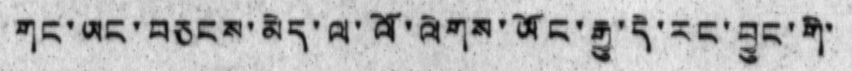གང་ཡང་བཅངས་མེད་ལ་ལོ་ལེགས་ཡོང་རྒྱུ་དེ་རང་བྱུང་གི་
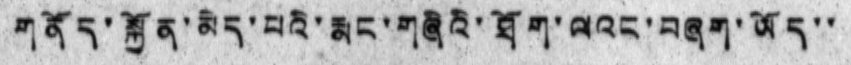གནོད་སྐྱོན་མེད་པའི་རྨང་གཞིའི་ཐོག་ལའང་བཞག་ཡོད་་
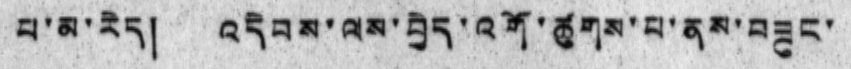པ་མ་རེད། འདེབས་ལས་བྱེད་འགོ་ཚུགས་པ་ནམ་བཟུང་
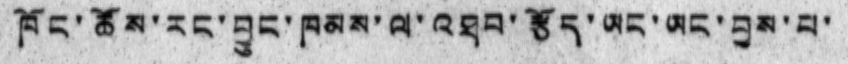ཁོང་ཚོས་རང་བྱུང་ཁམས་ལ་འཐབ་རྩོད་ཡང་ཡང་བྱས་པ་
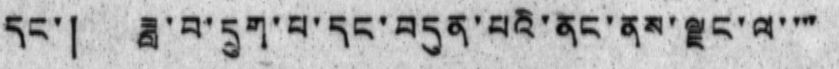དང་། ཟླ་བ་དྲུག་པ་དང་བདུན་པའི་ནང་ནས་ལྗང་ལ་་་་
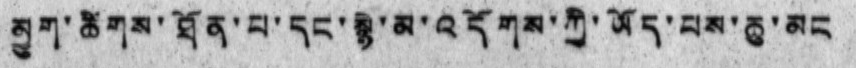མྱུག་ཚིགས་ཐོན་པ་དང་སྙེ་མ་འདོགས་ཀྱི་ཡོད་པས་ཆུ་མང
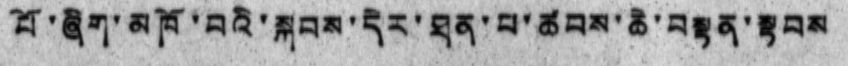པོ་ཞིག་མཁོ་བའི་སྐབས་དེར་ཐན་པ་ཚབས་ཆེ་བསྟན་སྟབས
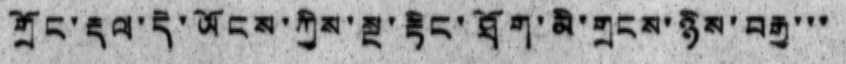གྲོང་རྡལ་དེ་ཡོངས་ཀྱིས་སྔ་རྟིང་ཐོག་མི་གྲངས་ཉིས་བརྒྱ་་་
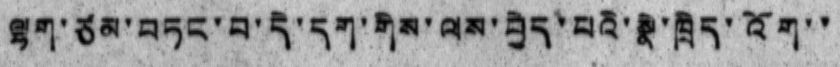ལྷག་ཙམ་བཏང་བ་དེ་དག་གིས་ལས་བྱེད་པའི་སྣེ་ཁྲིད་འོག་་
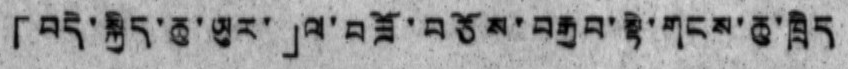「 བདེ་སྤྱོད་ཆུ་ཡུར་ 」 ལ་བཟོ་བཅོས་བརྒྱབ་སྟེ་གངས་ཆུ་ཁྲིད
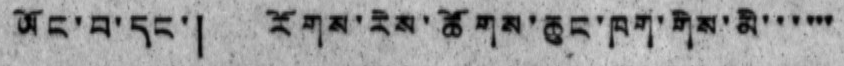ཡོང་བ་དང་། རོགས་རེས་ཚོགས་ཆུང་ཁག་གིས་མི་་་་་་
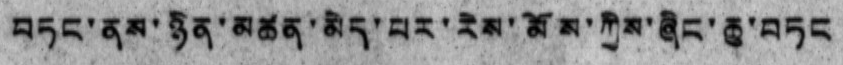བཏང་ནས་ཉིན་མཚན་མེད་པར་རེས་མོས་ཀྱིས་ཞིང་ཆུ་བཏང
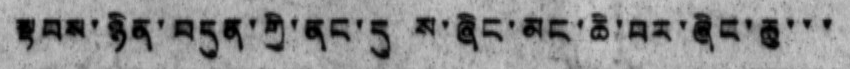སྟབས་ཉིན་བདུན་གྱི་ནང་དུ ས་ཞིང་མང་ཆེ་བར་ཞིང་ཆུ་་་
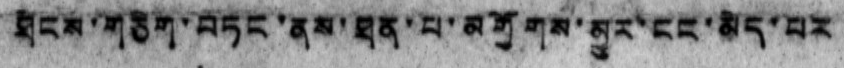ཐེངས་གཅིག་བཏང་ནས་ཐན་པ་མགྱོགས་མྱུར་ངང་མེད་པར
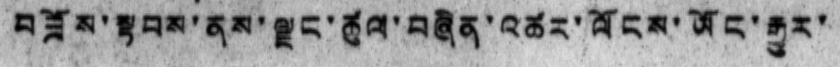བཟོས་སྟབས་ནས་ལྗང་ཚུལ་བཞིན་འཚར་ལོངས་ཡོང་རྒྱུར་
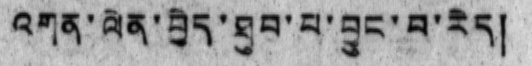འགན་ལེན་བྱེད་ཐུབ་པ་བྱུང་བ་རེད།
